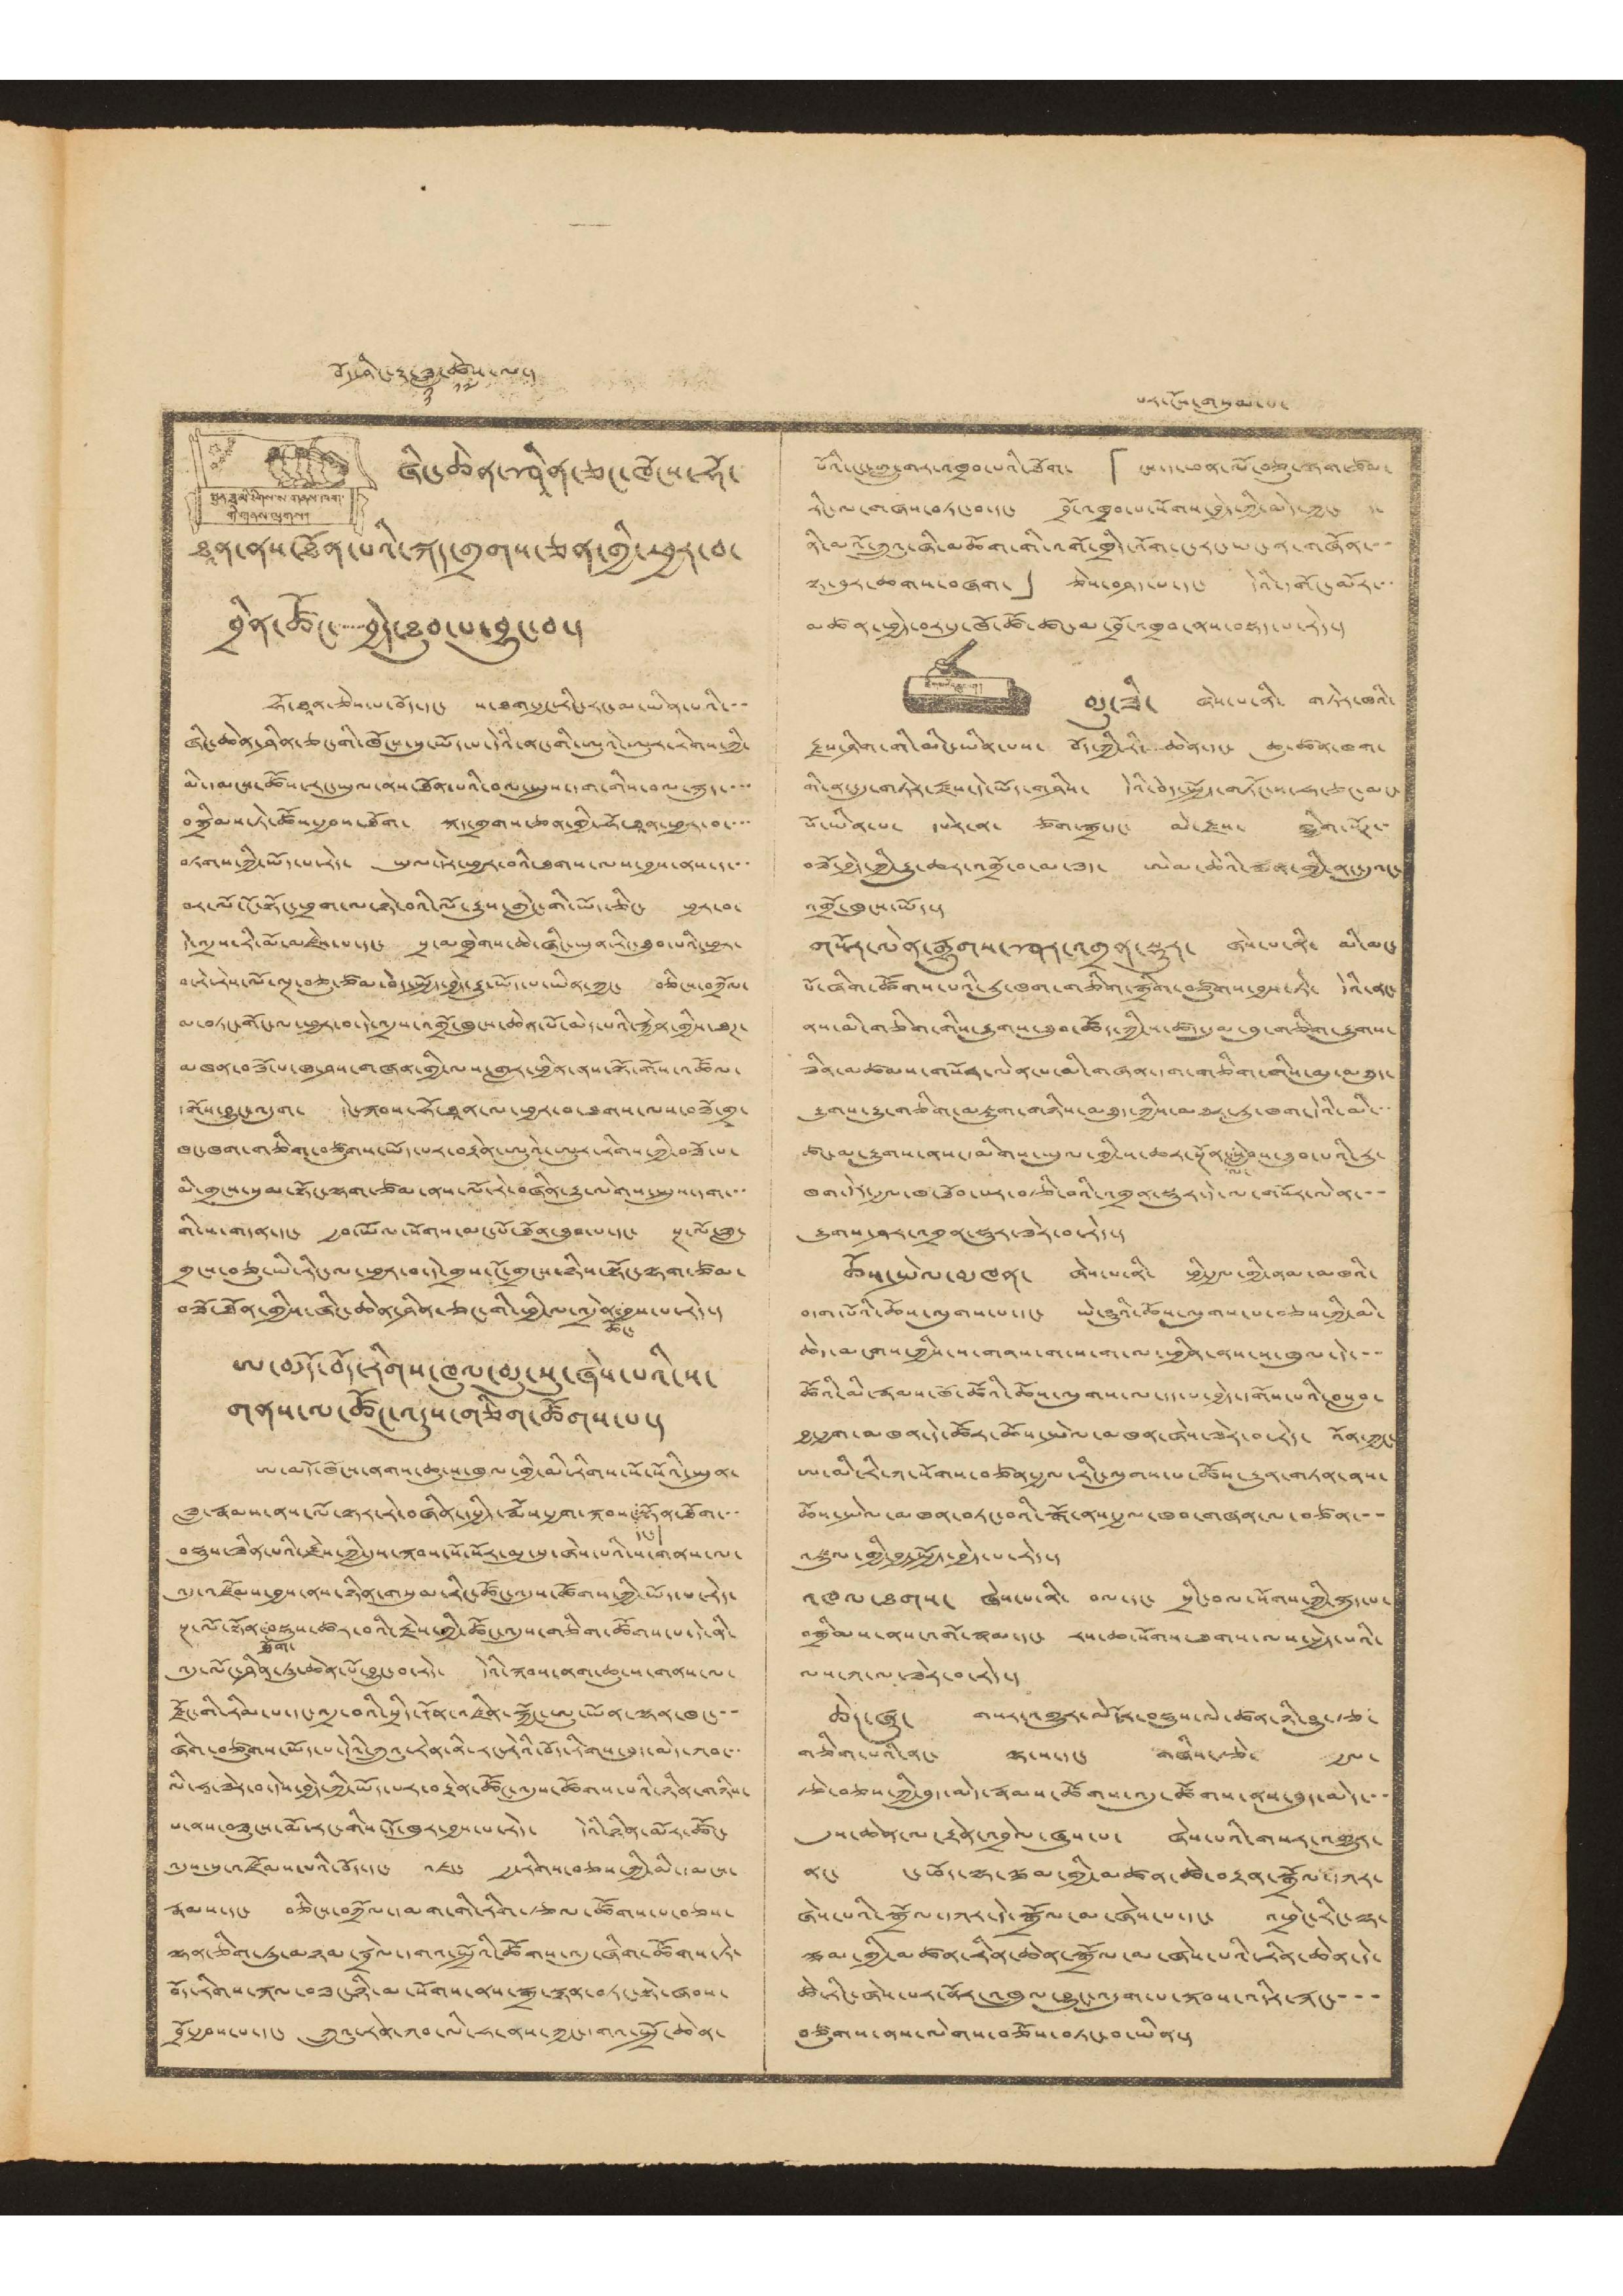བོད་ཤིང་རྟ་ཟླ་
༡༡
ཚེས་
༡༧
ལ་། པར་ངོས་གསུམ་པ་
སྤུན་ཟླ་མི་རིགས་ས་གནས་ཁག་
གི་གནས་ལུགས་།
ཞིང་ཆེན་ཤཱིན་ཅང་ཁོངས་ཧོ་
ཐཱན་ནས་ཐོན་པའི་སྐད་གྲགས་ཅན་གྱི་ཕྱར་བ་
བྲིན་ཚོང་་་་་་་་བྱེད་ཐུབ་པ་བྱུང་བ་།
ཧོ་ཐཱན་ཅེས་པ་བོད་དང་ ས་ཐག་རྒྱང་རིང་རང་མ་ཡིན་པའི་་་
ཞིང་ཆེན་ཤིན་ཅང་གི་ཁོངས་སུ་ཡོད་པ་དེའི་ནང་གི་ཨུའེ་ཨུར་རིགས་ཀྱི་
མི་དམངས་ཚོས་རང་ཡུལ་ནས་ཐོན་པའི་བལ་སྤུས་དག་གིས་བལ་སྐུད་་་་
བསྒྲིགས་ཏེ་ཚོས་རྒྱབས་ཐོག་ སྐད་གྲགས་ཅན་གྱི་ཧོ་ཐཱན་ཕྱར་བ་་་་
བཏགས་ཀྱི་ཡོད་པ་རེད་ ཡུལ་དེར་ཕྱར་བའི་ཐགས་ལས་བྱས་ནས་ད་་་
བར་ལོ་ངོ་སྟོང་ཕྲག་ལ་ཉེ་བའི་ལོ་རྒྱུས་གླེང་གི་ཡོད་ཅིང་ ཕྱར་བ་
དེ་འདྲས་རི་མོ་མཛེས་པ་དང་ སྲ་མཁྲེགས་ཆེ་ཞིང་ཡུན་རིང་ཐུབ་པའི་ཕྱར་
བ་རེ་རེས་ལོ་ལྔ་བཅུ་ཙམ་བེད་སྤྱོད་བྱེད་རྒྱུ་ཡོད་པ་ཡིན་ཀྱང་ བཅིངས་བཀྲོལ་
མ་བཏང་གོང་ལ་ཕྱར་བ་དེ་འདྲས་འགྲོ་ཁུངས་ཆེན་པོ་མེད་པའི་རྐྱེན་གྱིས་ཐཊ་
མཁན་བཟོ་པ་ཁ་ཤས་གཞན་གྱི་ལས་གླར་ཕྱིན་ནས་ལྟོ་གོས་འཚོལ་
དགོས་བྱུང་འདུག་ དེང་སྐབས་ཧོ་ཐཱན་ལ་ཕྱར་བ་ཐགས་ལས་བཟོ་གྲྭ་
ཁང་ཁག་གཅིག་བཙུགས་ཡོད་པར་བརྟེན་ཨུའེ་ཨུར་རིགས་ཀྱི་བཟོ་པ་
མི་གྲངས་སུམ་སྟོང་ལྷག་ཙམ་ནས་ལོ་རེ་བཞིན་རྒྱུ་ལེགས་སྤུས་དག་་་
གི་ས་གདན་དང་ རྒྱབ་ཡོལ་སོགས་མང་པོ་ཐོན་ཐུབ་པ་དང་ སྔ་ལོ་ཟླ་
གྲངས་བཅུ་ཡི་རིང་ལ་ཕྱར་བ་དེ་གྲས་ངོ་གྲངས་ཉིས་སྟོང་ལྷག་ཙམ་
བཟོ་ཐོན་གྱིས་ཞིང་ཆེན་ཤིན་ཅང་གི་ཕྱི་ལ་འདྲེན་
ཚོང་
བྱས་པ་རེད་།
ཨ་མདོ་བོད་རིགས་ཁུལ་མུ་སུ་ཞེས་པའི་ས་
གནས་ལ་ཚོང་འདུས་གཅིག་ཚོགས་པ་།
ཨ་མདོ་ཁོངས་ནགས་ཆུ་ས་ཁུལ་གྱི་མི་རིགས་སོ་སོའི་སྤུན་
ཟླ་རྣམས་ནས་ལོ་ལྟར་རེ་བཞིན་དཔྱིད་རྨོས་རྒྱག་སྐབས་
དང་།
སྟོན་ཐོག་་་
བསྡུས་ཟིན་པའི་རྗེས་ཀྱི་དུས་སྐབས་སོ་སོར་མུ་སུ་ཞེས་པའི་ས་གནས་ལ་
འདུ་འཛོམས་བྱས་ནས་ཉིན་གསུམ་རིང་ཚོང་འདུས་ཚོགས་ཀྱི་ཡོད་པ་རེད་
སྔ་ལོ་སྟོན་
ཐོག་
བསྡུས་ཚར་བའི་རྗེས་གྱི་ཚོང་འདུས་གཅིག་གཅིག་ཚོགས་པ་དེ་ནི་
འདུ་ལོང་ཤིན་ཏུ་ཆེན་པོ་བྱུང་བ་རེད་ དེའི་སྐབས་ནག་ཆུ་ས་གནས་ལ་
རྫོང་གི་རིམ་པ་དང་འདྲ་བའི་སྲིད་དོན་འཛིན་སྐྱོང་ཨུ་ཡོན་ལྷན་ཁང་་་
ཞིག་བཙུགས་ཡོད་པ་དེའི་ཀྲུའུ་རེན་ནི་རང་རེའི་བོད་རིགས་བུད་མེད་ཀབ་་་
ལི་ཧཱ་ཟེར་བ་དེས་བྱེད་ཀྱི་ཡོད་པར་བརྟེན་ཚོང་འདུས་ཚོགས་པའི་ཉིན་གཉིས་
པ་ནས་བཟུངས་མོ་རང་གིས་དོ་ཁུར་བྱས་པ་རེད་ དེའི་ཉིན་མོར་ཚོང་
འདུས་དུ་འཛོམས་པའི་བོད་དང་ འཇང་ རྒྱ་རིགས་བཅས་ཀྱི་མི་དམངས་
རྣམས་དང་ བཅིངས་བཀྲོལ་དམག་གི་རིག་རྩལ་ཚོགས་པ་བཅས་
ལྷན་ཅིག་ཏུ་མཉམ་སྦྲེལ་དགའ་སྤྲོའི་ཚོགས་འདུ་ཞིག་ཚོགས་ཏེ་
བོད་རིགས་སྐལ་བཟང་ཉི་མ་སོགས་ནས་སྒྲ་སྙན་བཏང་སྟེ་ཞབས་
བྲོ་རྒྱབས་པ་དང་ ཀྲུའུ་རེན་ཀབ་ལི་ཧ་ནས་ཀྱང་དགའ་སྤྲོ་ཆེན་
པོའི་ངང་གླུ་གར་འཁྲབ་པའི་ཐོག་ 「ངས་ད་ཕན་ལོ་བཅུ་ལྷག་ཙམ་
རིང་ལ་གཞས་བཏང་བ་དང་ བྲོ་འཁྲབ་པ་སོགས་བྱེད་ཀྱི་མེད་ཀྱང་ ད་
ནི་མའོ་ཀྲུའུ་ཞི་མཆོག་གི་འགོ་ཁྲིད་འོག་ང་རང་ཡང་ན་གཞོན་་་
ལྟ་བུར་ཆགས་བཞག་」 ཅེས་བཤད་པ་དང་ དེའི་དགོང་མོར་་་
མཚན་ཕྱེད་བར་དུ་ཁོ་ཚོ་ཚང་མ་བྲོ་འཁྲབ་ནས་བསྡད་པ་རེད་།
ཚིགས་མཛོད་ཆུང་བ་།
མུ་ཟེ་ ཞེས་པ་ནི་ གཏེར་ཁའི་
རྫས་ཤིག་གི་མིང་ཡིན་པས་ བོད་ཀྱི་རི་་་་ཆེན་དང་ ཆུ་ཚན་ཁག་
གི་ནང་དུ་གཏེར་རྫས་དེ་ཡོད་གཤིས་ དེའི་བེད་སྤྱོད་གཏོང་ས་ཧ་ཅང་མང་
པོ་ཡིན་པ་ དཔེར་ན་ ཙག་སྒྲ་དང་ མེ་རྫས་ ལྷྱིགསོཊ་་
བཟོ་བྱེད་ཀྱི་རྒྱུ་ཆར་འགྲོ་བ་མ་ཟད་ ཨེམ་ཆེའི་སྨན་གྱི་ནང་དུའང་
འགྲོ་ཁུངས་ཡོད་།
གསོར་ལེན་རྒྱུགས་ཤར་འགྲན་སྡུར་ ཞེས་པ་ནི་ མི་མང་
པོ་ཞིག་ཚོགས་པའི་རུ་ཁག་གཅིག་སྒྲིག་བཙུགས་བྱས་ཏེ་ དེའི་ནང་
ནས་མི་གཅིག་གིས་རྒྱུགས་ཐུབ་ཚོད་ཀྱི་ས་ཚད་དུམ་བུ་གཅིག་རྒྱུགས་
ཟིན་མཚམས་གསོར་ལེན་པ་མི་གཞན་དག་གཅིག་གིས་མུ་མཐུད་
རྒྱུགས་རྒྱུ་གཅིག་མཇུག་གཉིས་མཐུད་ཀྱིས་མཐར་རུ་ཁག་དེའི་མི་་་
ཚང་མ་རྒྱུགས་ནས་དམིགས་ཡུལ་གྱི་ས་ཆར་སྔོན་
ལ་
སླེབས་ཐུབ་པའི་རུ་
ཁག་དེར་རྒྱལ་ཁ་ཐོབ་པར་བརྩི་བའི་འགྲན་སྡུར་དེ་ལ་གསོར་ལེན་་་
རྒྱུགས་ཤར་འགྲན་སྡུར་ཟེར་བ་རེད་།
ཆོས་སྤེལ་མཁན་ ཞེས་པ་ནི་ ཕྱི་རྒྱལ་གྱི་ནམ་མཁའི་
བདག་པོའི་ཆོས་ལུགས་པ་དང་ ཡེ་ཤུའི་ཆོས་ལུགས་པ་བཅས་ཀྱི་མི་
ཆེད་མངགས་ཀྱིས་ས་གནས་ག་ས་ག་ལ་ཕྱིན་ནས་ས་ཁུལ་དེ་་་
ཚོའི་མི་རྣམས་ཁོ་ཚོའི་ཆོས་ལུགས་ལ་དད་པ་བྱེད་དགོས་པའི་བསླབ་
བྱ་རྒྱག་མཁན་དེ་ཚོར་ཆོས་སྤེལ་མཁན་ཞེས་ཟེར་བ་རེད་ འོན་ཀྱང་
ཨ་མི་རི་ཀ་སོགས་བཙན་རྒྱལ་རིང་ལུགས་པ་ཚོས་རྒྱུན་གཏན་ནས་
ཆོས་སྤེལ་མཁན་བཏང་བའི་སྒོ་ནས་རྒྱལ་ཁབ་གཞན་ལ་བཙན་་་
འཛུལ་གྱི་བྱ་སྤྱོད་བྱེད་པ་རེད་།
འཁལ་ཐགས་ ཞེས་པ་ནི་ བལ་དང་ སྲིང་བལ་སོགས་ཀྱི་སྐུད་པ་
བསགརིམས་ནས་འགོ་སྣམ་དང་ རས་ཆ་སོགས་ཐགས་ལས་བྱེད་པའི་
ལས་ཀ་ལ་ཟེར་བ་རེད་།
ཆེད་ཞུ་ གསར་འགྱུར་མདོར་བསྡུས་ལེ་ཚན་ཉི་ཤུ་རྩ་
གཅིག་པའི་ནང་ ལྷ་ས་དང་ གཞིས་རྩེ་ རྒྱལ་
རྩེ་བཅས་ཀྱི་བུད་མེད་རྣམས་ཚོགས་འདུ་ཚོགས་ནས་བུད་མེད་་་
དུས་ཆེན་ལ་རྟེན་འབྲེལ་ཞུས་པ་ ཞེས་པའི་གསར་འགྱུར་
ནང་ ང་ཕོད་ལྷ་ལྕམ་གྱི་མཚན་ཚེ་བརྟན་སྒྲོལ་དཀར་
ཞེས་པའི་སྒྲོལ་དཀར་དེ་སྒྲོལ་མ་ཞེས་པ་དང་ འཕྲེང་རིང་ལྷ་
ལྕམ་གྱི་མཚན་རིན་ཆེན་སྒྲོལ་མ་ཞེས་པའི་རིན་ཆེན་དེ་
ཚེ་རིང་ཞེས་པར་ནོར་འཁྲུལ་བྱུང་འདུག་པ་སྐབས་འདིར་རྐང་་་་
བཙུགས་ནས་ལེགས་བཅོས་བཏང་བ་ཡིན་།
